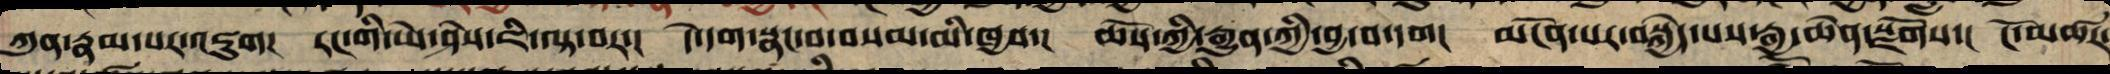ཀུན་རྣམ་པར་འཇུག། རང་གི་ཡེ་ཤེས་ཇི་ལྟ་བར་། དེ་དག་སྣང་བ་བསམ་མི་ཁྱབ་། ཆོས་ཀྱི་རྒྱུན་གྱི་བྱ་བ་དག། མངོན་པར་སྤྱད་པས་རྒྱ་ཆེན་སྫོགས་། ངོ་མཚར
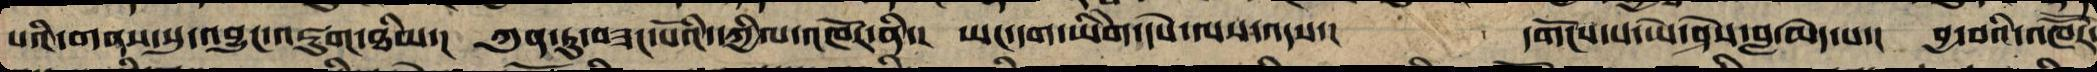པའི་གནས་སུ་འབྱུང་འཇུག་ཐིམ་། ཀུན་ཏུ་བཟང་པོའི་དཀྱིལ་འཁོར་ནི་། ཡང་དག་ཡིགེ་དཔེ་ལས་འདས་། དགོངས་པ་ཡེ་ཤེས་བླ་མེད་པ་། བྱ་བའི་འཁོརོ་
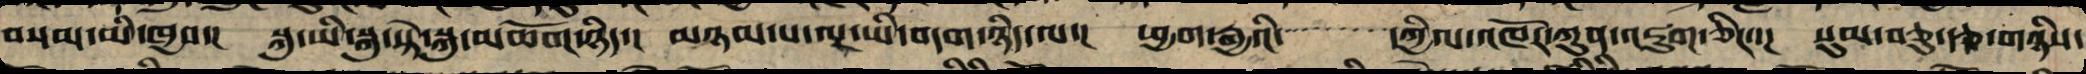བསམ་མི་ཁྱབ་། སྐུ་ཡི་སྐུ་སྟེ་སྐུ་མཆོག་ཉིད་། མཉམ་པ་ལྔ་ཡི་བདག་ཉིད་ལ་། ཕྱག་རྒྱའི་དཀྱིལ་འཁོར་ཀུན་འཇུག་ཅིང་་། སུམ་ཅུ་རྩ་གཉིས་
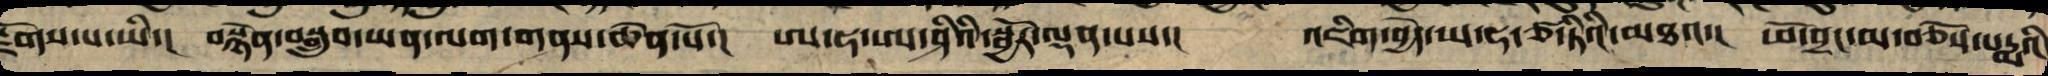སྫོགས་པ་ཡི་། བསྙེན་བསྒྲུབ་ཡན་ལག་གནས་ཆེན་པོ་། ཨ་ཧ་ཨ་ཤིའི་སྦྱོར་ལྡན་པས་། འཇིགས་བྱེད་ཡ་ཧ་ཙ་ཏིའི་མཐའ་། ཕོ་བྲང་མ་བཅོས་པདྨའི
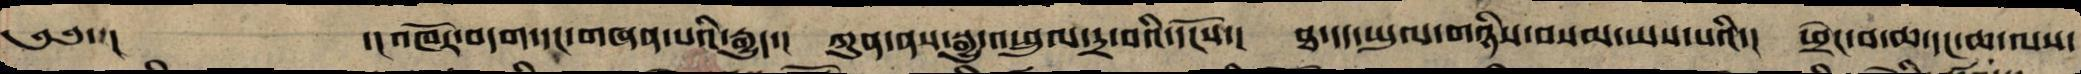༄༅་། ་།འཁོར་བདག་དང་གཞན་པའི་རྒྱུད་། ཀུན་ནས་སྒྱུ་འཕྲུལ་དྲ་བའི་དངོས་། ཐ་དད་ཡུལ་གཉིས་བསམ་ཡས་པའི་། ཕྲེང་བ་ཆ་དང་ཆ་ལས་
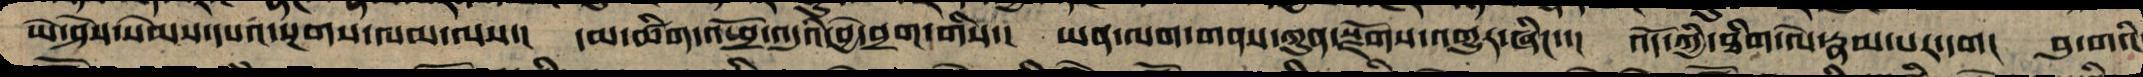ཡེ་ཤེས་སེམས་དཔའ་སྔགས་ལམ་ལས་། དམ་ཚིག་འཕྲོ་འདུའི་བྱེ་བྲག་གིས་། ཡན་ལག་གནས་ཀུན་སྫོགས་འགྱུར་ཞིང་་། འོད་ཀྱི་ཐིག་ལེ་རྣམ་པར་དག། བུ་གའི་
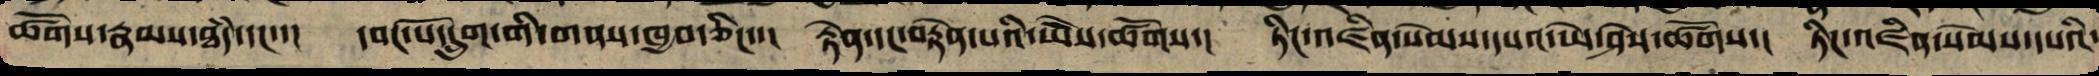ཚོགས་རྣམས་ཐཾད་དང་་། དབང་པོ་དྲུག་གི་གནས་ཁྱབ་ཅིང་་། རྟེན་དང་བརྟེན་པའི་ཡེ་ཤེས་ཚོགས་། ཏིང་འཛིན་སེམས་དཔའ་ཡེ་ཤེས་ཚོགས་། ཏིང་འཛིན་སེམས་དཔའི་
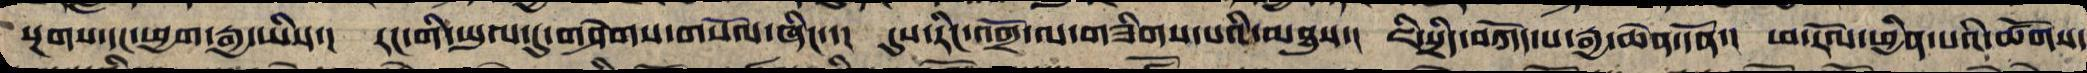སྔགས་དང་ཕྱག་རྒྱ་ཡིས་། རང་གི་ཡུལ་དུ་གཤེགས་གསོལ་ཞིང་་། དུས་རིང་འགྲོ་ལ་གཟིགས་པའི་མཐུས་། ཇི་སྲིད་བཀོད་པ་རྒྱ་ཆེན་དོན་། ཕ་རོལ་ཕྱིན་པའི་ཚོགས་
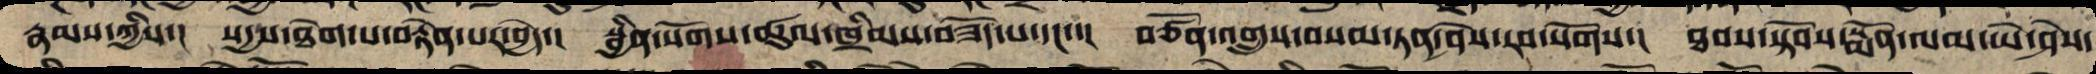རྣམས་ཀྱི་། སདྱས་ཐེག་པ་བརྟེན་པར་བྱེད་། སྦྱིན་སོགས་ཚུལ་ཁྲིམས་བཟོད་པ་དང་་། བརྩོན་འགྲུས་བསམ་གཏན་ཤེས་རབ་སོགས་། ཐབས་སྟོབས་སྨོན་ལམ་ཡེ་ཤེས་
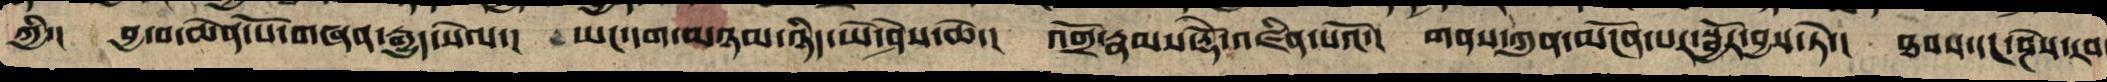ཀྱི་། བྱ་བ་ཆེན་པོས་གཞན་རྒྱུད་སེལ་། ཡང་དག་མཉམ་ཉིད་ཡེ་ཤེས་ཆེ་། འགྲོ་རྣམས་རྡོ་རྗེ་འཛིན་པའོ་། གནས་ཀུན་མངོན་པར་སྦྱོར་བྱས་ཏེ་། ཐབས་དང་ཤེས་རབ
